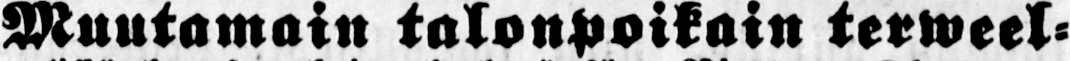Muutamain talonpoikain terweel-
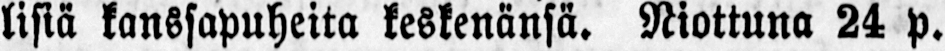lisiä kanssapuheita keskenänsä. Niottuna 24 p.
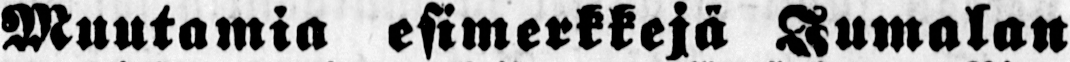Muutamia esimerkkejä Jumalan
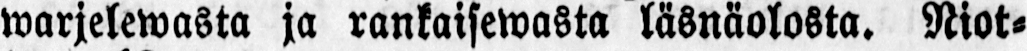warjelewasta ja rankaisewasta läsnäolosta. Niot-
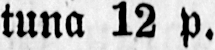tuna 12 p.
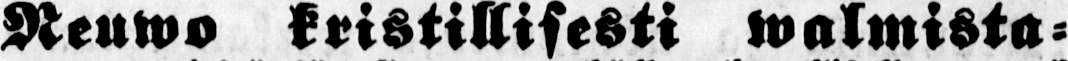Neuwo kristillisesti walmista-
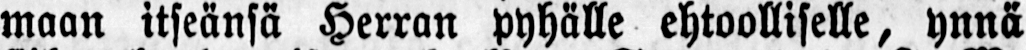maan itseänsä Herran pyhälle ehtoolliselle, ynnä
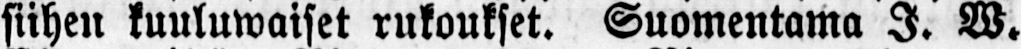siihen kuuluwaiset rukoukset. Suomentama J. W.
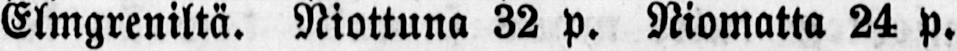Elmgreniltä. Niottuna 32 p. Niomatta 24 p.
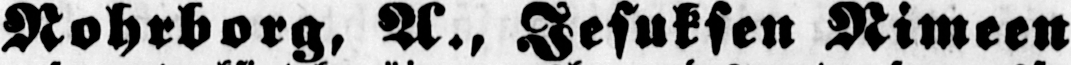Nohrborg, A., Jesuksen Nimeen
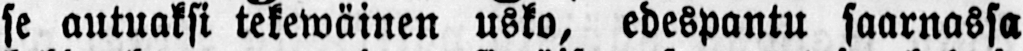se autuaksi tekewäinen usko, edespantu saarnassa
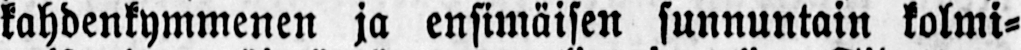kahdenkymmenen ja ensimäisen sunnuntain kolmi-
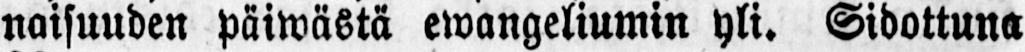naisuuden päiwästä ewangeliumin yli. Sidottuna
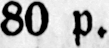80 p.
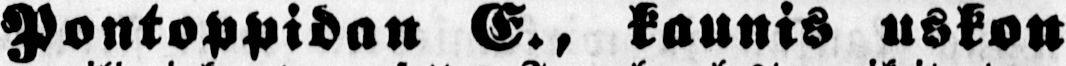Pontoppidan E., kaunis uskon
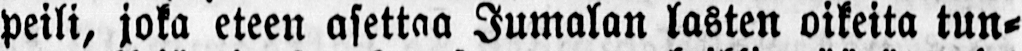peili, joka eteen asettaa Jumalan lasten oikeita tun-
